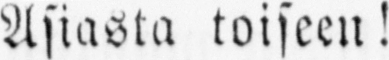Asiasta toiseen!
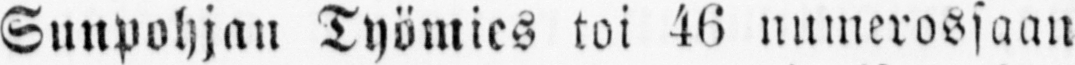Sunpohjan Työmies toi 46 numerossaan
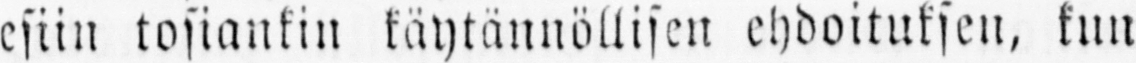esiin tosiankin käytännöllisen ehdoituksen, kun
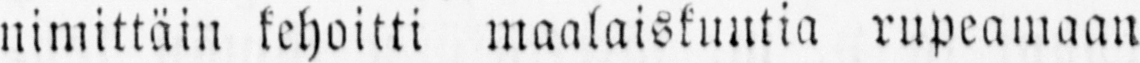nimittäin kehottti maalaiskuntia rupeamaan
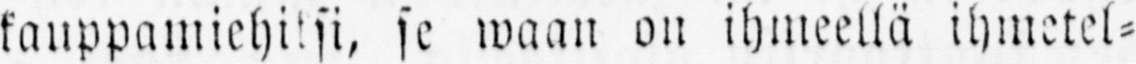kauppamiehiksi, se waan on ihmeellä ihmetel-
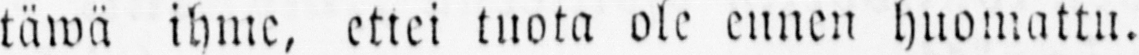täwä ihme, ettei tuota ole ennen huomattu.
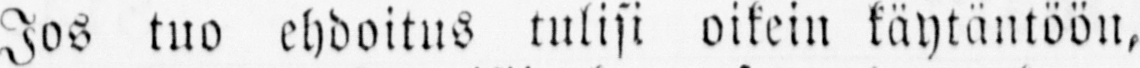Jos tuo ehdoitus tulisi oikein käytäntöön,
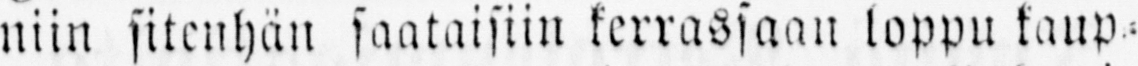niin sitenhän saataisiin kerrassaan loppu kaup-
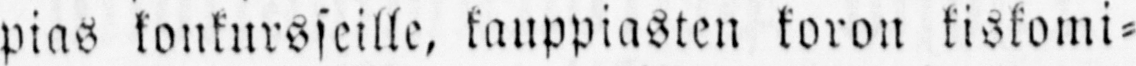pias konkursseille, kauppiasten koron kiskomi-
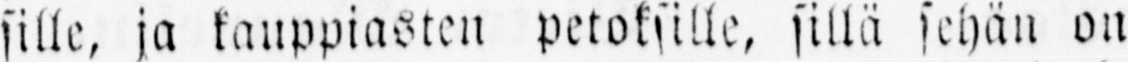sille, ja kauppiasten petoksille, sillä sehän on
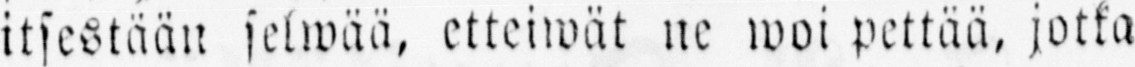itsestään selwää, etteiwät ne woi pettää, jotka
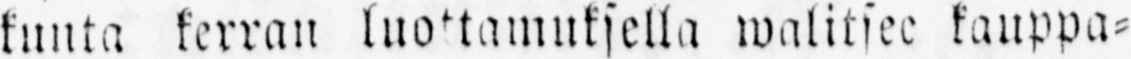kunta kerran luottamuksella walitsee kauppa-
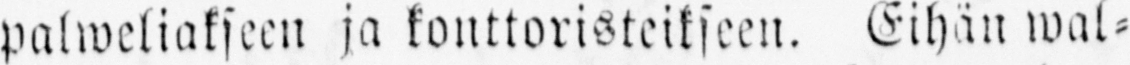palweliakseen ja konttoristeikseen. Eihän wal-
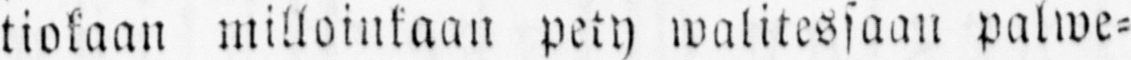tiokaan milloinkaan pety walitessaan palwe-
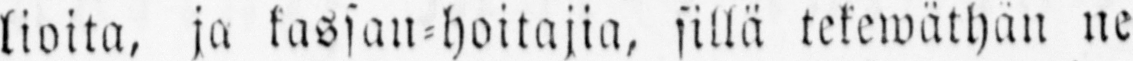lioita, ja kassan-hoitajia, sillä tekewäthan ne
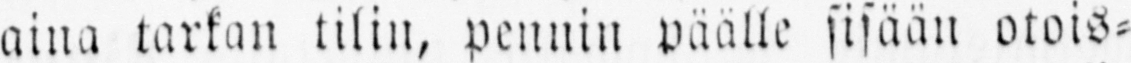aina tarkan tilin, pennin päälle sisään otois-
